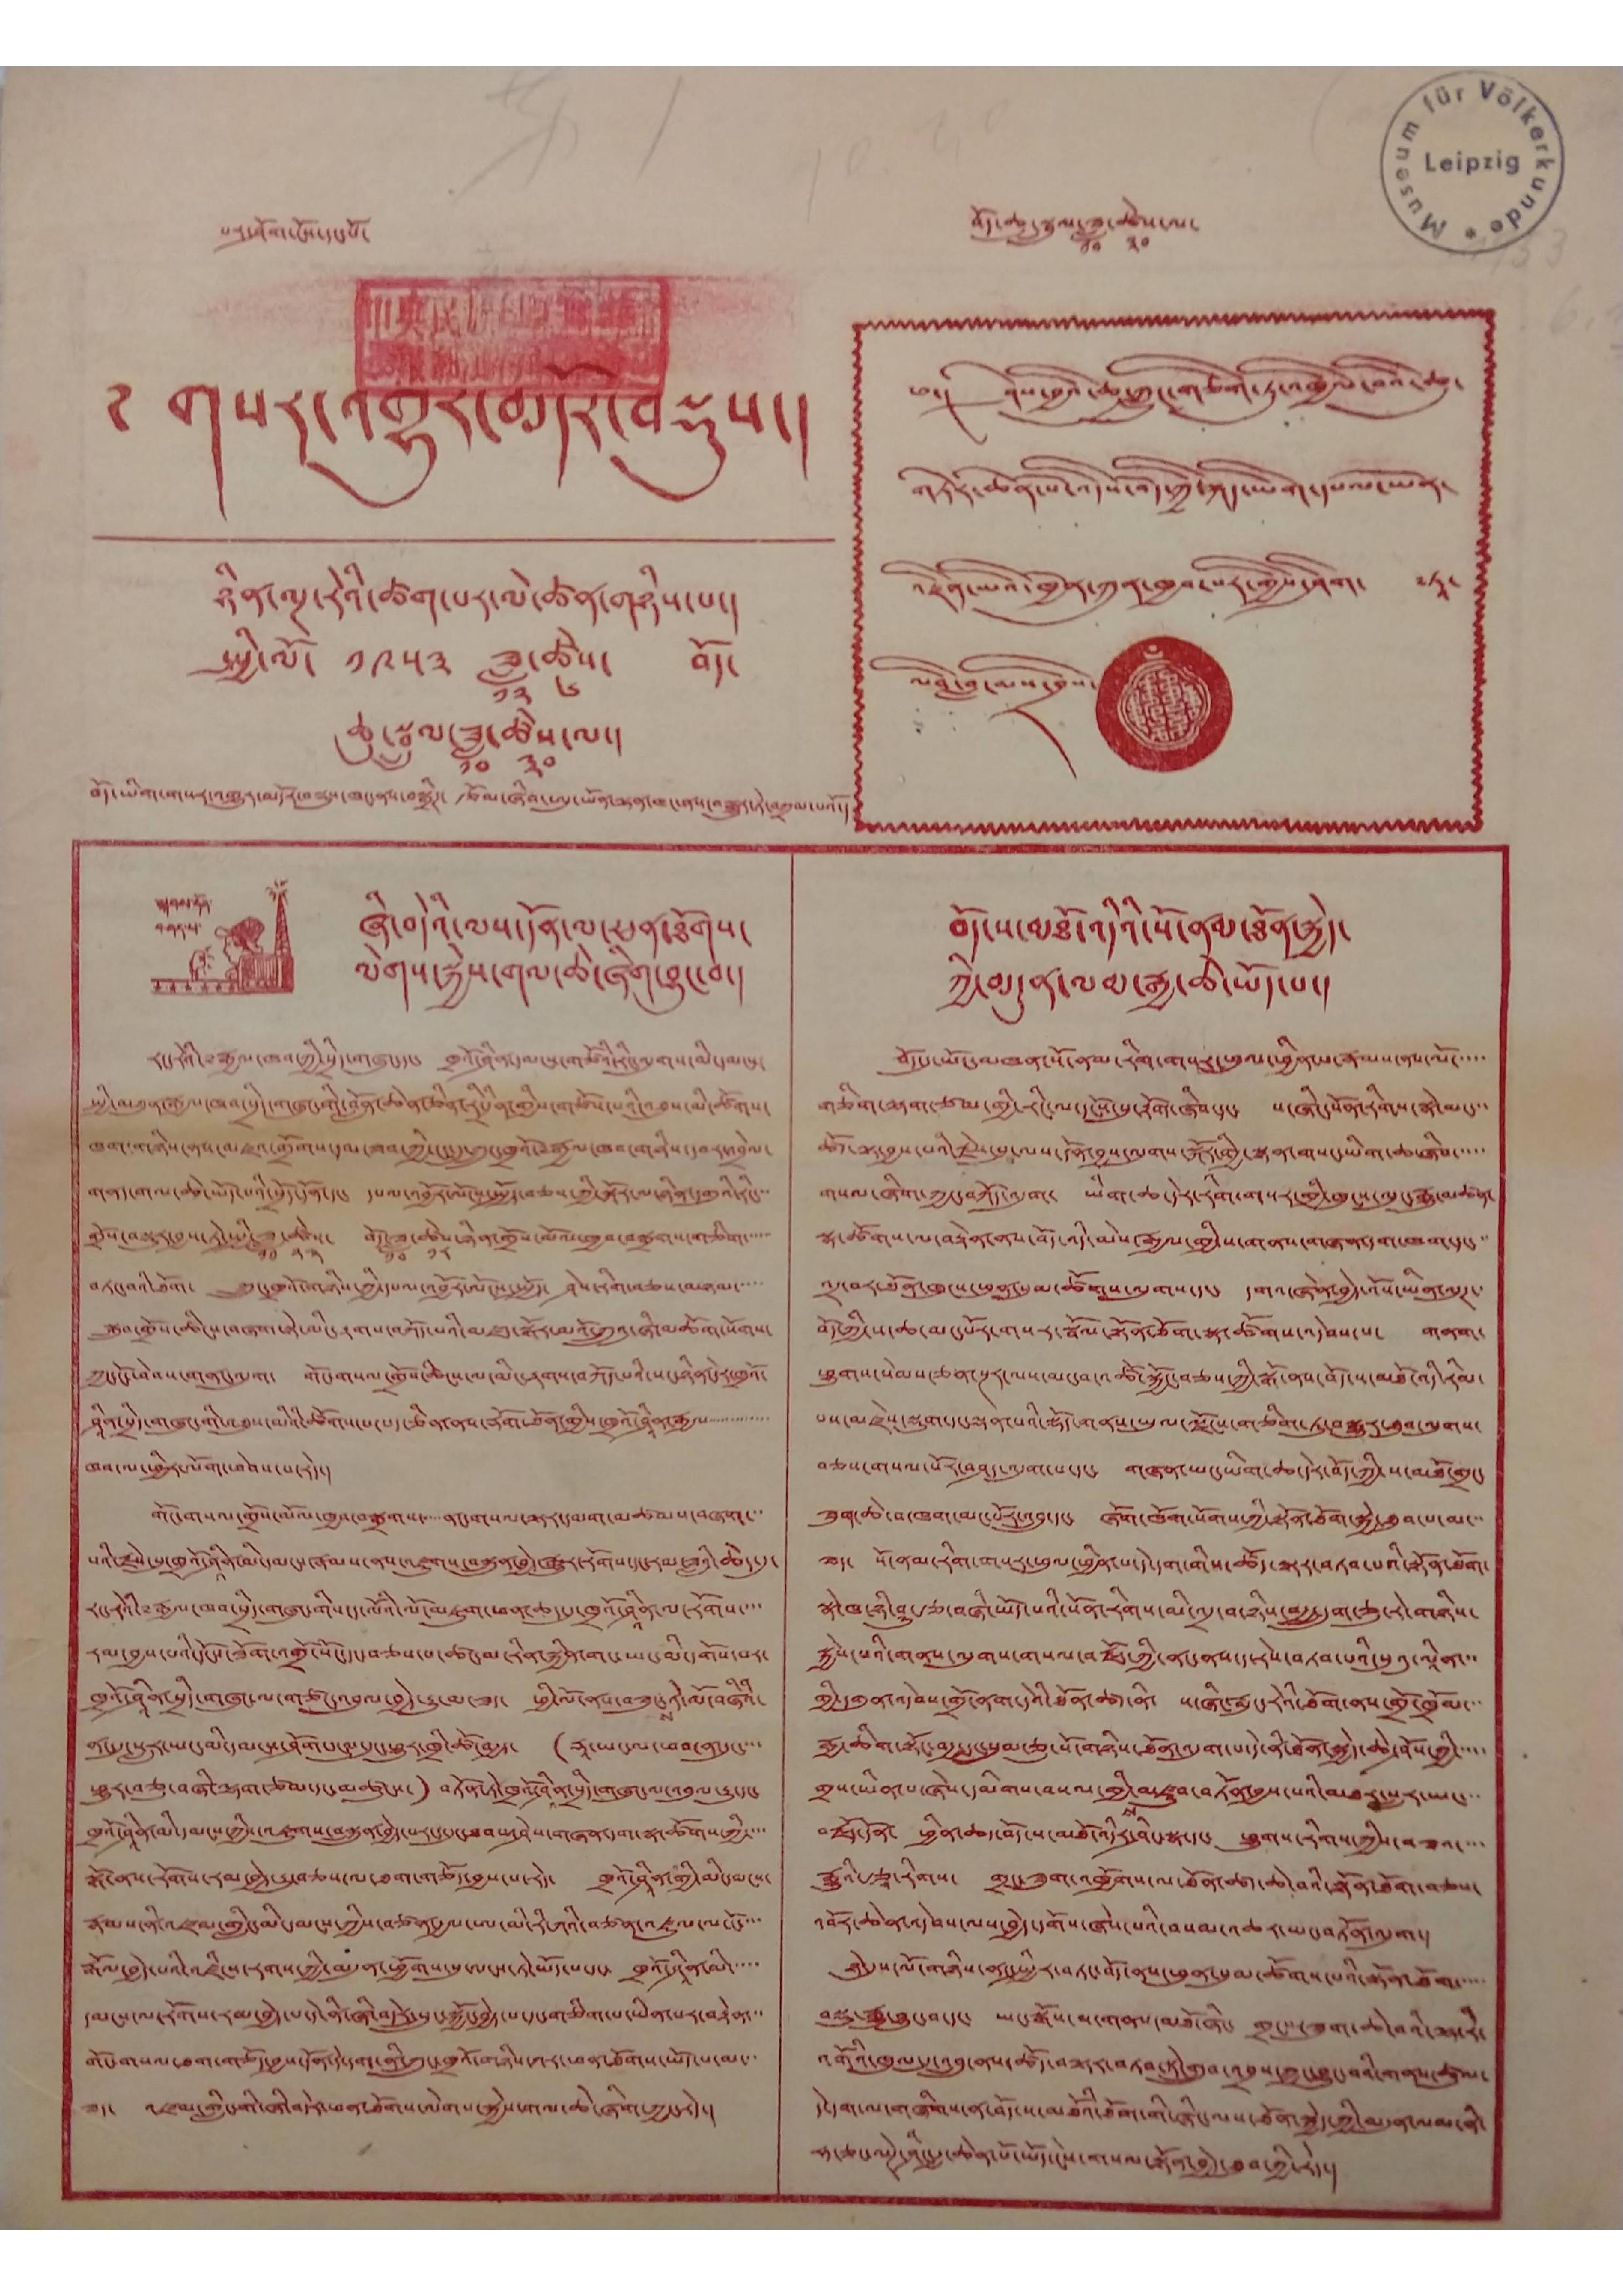པར་ཤོག་ངོས་དང་པོ་ བོད་ཆུ་སྦྲུལ་ཟླ་
༡༠
ཚེས་
༣༠
ལ་
གསར་འགྱུར་མདོར་བསྡུས།
ཉིན་ང་རེའི་ཚག་པར་ལེ་ཚན་གཉིས་པ་།
སྤྱི་ལོ་ ༡༩༥༣ ཟླ་
༡༢
ཚེས་
༦
བོད་
ཆུ་སྦྲུལ་ཟླ་
༡༠
ཚེས་
༣༠
ལ་།
བོད་ཡིག་གསར་འགྱུར་མདོར་བསྡུས་ཁང་ནས་བསྒྲིཊ་ རྩོམ་ཞིབ་ཨུ་ཡོན་ལྷན་ཁང་ནས་བསྒྱུར་ཏེ་བཀྲམ་པའོ་།
༄། ཤེས་བྱའི་ཆུ་ཀླུང་གཅིག་ཏུ་འཁྱིལ་བའི་ཆུ་
གཏེར་ཆེན་པོ་འདིས་བོད་ཀྱི་སྐད་ཡིག་དཔལ་ཡོན་
འཛིན་པའི་ཁྱོན་ཀུན་ཁྱབ་པར་གྱིས་ཤིག་ ༸ཏཱ་
ལའི་བླ་མས་བྲིས་
སྐབས་དོན་
བཤད་པ་
ཞི་བདེའི་ལས་དོན་ལ་ཕན་ཐོགས་
ལེགས་སྐྱེས་གལ་ཆེ་ཞིག་བྱུང་བ་།
རང་རེའི་རྒྱལ་ཁབ་ཀྱི་སྲིད་གཞུང་དང་ ཁྲའོ་ཤིན་དམངས་གཙོའི་རིང་ལུགས་མི་དམངས་
སྤྱི་མཐུན་རྒྱལ་ཁབ་སྲིད་གཞུང་གི་བློན་ཆེན་ཅིན་རི་དྲིན་གྱིས་གཙོས་པའི་འབུས་མི་ཚོགས་
ཁག་གཞིས་ནས་མཛའ་གྲོགས་དམ་ཟབ་ཀྱི་ངང་དུ་ཀྲུང་ཁྲའོ་རྒྱལ་ཁབ་གཉིས་དབར་འབྲེལ་
གནད་གལ་ཆེ་ཡོད་པའི་བྲོད་དོན་དང་ དཔལ་འབྱོར་ལོངས་སྤྱོད་བཅས་ཀྱི་སྐོར་ལ་ཉིན་དགུའི་རིང་་་
གྲོས་བསྡུར་བྱས་ཏེ་སྤྱི་ཟླ་
༡༠
ཚེས་
༢༢
བོད་ཟླ་
༡༠
ཚེས་
༡༨
ཉིན་གྲོས་མོལ་ཁྱབ་བསྒྲགས་གཅིག་་་་་
བཏང་བའི་ཐོག་ ཀྲུང་ཁྲའོ་གཉིས་ཀྱི་དཔལ་འབྱོར་ལོངས་སྤྱོད་ ཤེས་རིག་བཅས་མཉམ་་་་་
སྒྲུབ་གྲོས་ཆིངས་བཞག་སྟེ་ལིང་རྟགས་བཀོད་པའི་མཛད་སྒོར་མའོ་ཀྲུའུ་ཞི་མཆོག་སོགས་
ཀྱང་ངོ་ཕེབས་གནང་འདུག་ གོང་གསལ་གྲོས་ཆིངས་ལ་མིང་རྟགས་བཀོད་པའི་སང་ཉིན་དེར་ཁྲའོ་
ཤཱིན་སྲིད་གཞུང་གི་འཐུས་མིའི་ཚོགས་པ་པད་ཅིན་ནས་རྡོག་ཐོན་གྱིས་ཁྲའོ་ཤཱིན་རྒྱལ་་་་་་་་་་་་་་
ཁབ་ལ་ཕྱིར་ལོག་ཕེབས་པ་རེད་།
གོང་གསལ་གྲོས་མོལ་ཁྱབ་བསྒྲགས་་་་་ནང་གསལ་ལྟར་དམག་མཚམས་བཞག་་་
པའི་རྗེས་སུ་གྲའོ་ཤཱིན་མི་དམངས་རྣམས་ནས་འཛུགས་བསྐྲུན་བྱེད་རྒྱུར་རོགས་དང་རམ་ཟླའི་ཆེད་དུ་
རང་རེའི་༸རྒྱལ་ཁབ་སྲིད་གཞུང་གིས་ད་ལོའི་ལོ་མཇུག་ཕན་ཆད་དུ་ཁྲའོ་ཤཱིན་ལ་རོགས་་་་
རམ་བྱས་པའི་དངོས་ཟོག་འགྲོ་སོང་དང་བཅས་པ་ཚང་མ་རིན་སྐྱིན་གང་ཡང་མི་དགོས་པར་
ཁྲའོ་ཤཱིན་སྲིད་གཞུང་ལ་གཙང་འབུལ་བྱེད་རྒྱུ་མ་ཟད་ ཕྱི་ལོ་ནས་བཟུང་
ས
ཏེ་ལོ་བཞིའི་
ནང་དུ་སླར་ཡང་མི་དམངས་ཤོགས་པ་དུང་ཕྱུར་ཁྲི་ཚོ་བརྒྱད་ (རྡཱ་ཡང་ལ་ཕབ་ན་དུང་་་་
ཕྱུར་བཅུ་བཞི་ལྷག་ཙམ་དང་མཚུངས་) བཏོན་ཏེ་ཁྲའོ་ཤཱིན་སྲིད་གཞུང་ལ་འབུལ་རྒྱུ་དང་
ཁྲའོ་ཤཱིན་མི་དམངས་ཀྱིས་འཛུགས་བསྐྲུན་བྱེད་པར་ད་དུང་ཐབས་ཤེས་གཞན་དག་སྣ་ཚོགས་ཀྱི་་་་
སྒོ་ནས་རོགས་རམ་བྱེད་རྒྱུ་བཅས་ལ་ཐག་གཅོད་བྱས་པ་རེད་ ཁྲའོ་ཤཱིན་གྱི་མི་དམངས་
རྣམས་ནི་འཛམ་གླིང་མི་དམངས་ཀྱིས་བཙན་རྒྱལ་ཨ་མི་རི་ཀའི་བཙན་འཛུལ་ལ་ངོ་་་་
རྒོལ་བྱེད་པའི་འཛིངས་རགས་ཀྱི་མདུན་ཕྱོགས་སུ་ལངས་ཏེ་ཡོད་པ་དང་ ཁྲའོ་ཤཱིན་མི་་་་་
དམངས་ལ་རོགས་རམ་བྱེད་པ་ནི་ཞི་བདེར་སྲུང་སྐྱོང་བྱེད་པ་དང་གཅིག་པ་ཡིན་པར་བརྟེན་་་
གོང་གསལ་ཐག་གཅོད་བྱས་དོན་དེ་དག་ནི་ཀྲུང་ཁྲའོ་གཉིས་ཀར་ཕན་ཐོགས་ཡོད་པ་མ་
ཟད་ འཛམ་གླིང་གི་ཞི་བདེར་ཕན་ཐོགས་ལེགས་སྐྱེས་གལ་ཆེ་ཞིག་ཀྱང་རེད་།
བོད་ས་མཐོ་འདིའི་སོ་ནམ་ཐོན་སྐྱེད་
ཀྱི་མདུན་ལམ་རྒྱ་ཆེ་ཡོད་པ་།
བོད་དུ་ཡོང་མཁན་སོ་ནམ་རིག་གསར་ཕུལ་ཕྱིན་པ་རྣམས་ནས་ལོ་་་་་
གཅིག་ལྷག་ཙམ་གྱི་རིང་ལ་དངོས་སུ་རྟོག་ཞིབ་དང་་ས་ཞིང་སོན་རིགས་སྣེ་མང་་་
ཚོད་ལྟ་བྱས་པའི་རྗེས་སུ་ལས་དོན་བྱས་ལུགས་སྐོར་གྱི་སྙན་གསང་ཡིག་ཆ་ཞིབ་་་་་
གསལ་ཞིག་ཀྱང་བཀོད་འདུག་ ཡིག་ཆ་དེར་རིགས་གསར་གྱི་ཁུངས་ལུང་རྒྱུ་མཚན་
སྣ་ཚོགས་ལ་བརྟེན་ནས་བོད་འདི་མེས་རྒྱལ་གྱི་ས་གནས་གཞན་དག་ཁག་དང་་་
འདྲ་བར་ཐོན་ཁུངས་ཕུན་སུམ་ཚོགས་ལུགས་དང་ དགའ་ཞེན་བྱེད་འོས་ཡིན་ལུཊ་
བོད་ཀྱི་ས་ཆ་མང་པོར་གསར་སྦོལ་སྟོན་ཐོག་སྣ་ཚོགས་འདེབས་པ་ གནག་
ཕྱུགས་སེམས་ཅན་སྔར་ལས་མང་བ་འཚོ་སྐྱོང་བཅས་ཀྱི་སྒོ་ནས་བོད་ས་མཐོ་འདི་རིམ་
པས་མཛེས་སྡུག་དང་ལྡན་པའི་སྡོད་གནས་ཡུལ་ལྗོངས་གཅིག་ཏུ་བསྒྱུར་ཐུབ་ལུགས་
བཅས་གསལ་པོར་བཤད་འདུག་པ་དང་ གཞན་ཡང་ཡིག་ཆ་དེར་བོད་ཀྱི་ས་མཐོ་གྲང་
ཟུག་ཆེ་བ་ཁག་མང་པོར་འབྲུ་དང་ ཞོག་ཁོག་སོགས་ཀྱི་སྟོན་ཐོག་སྐྱེ་ཐུབ་པ་མ་་་
ཟད་ སོ་ནམ་རིག་གསར་ཕུལ་ཕྱིན་པ་དེ་དག་གིས་ཚོད་ལྟར་བཏབ་པའི་སྟོན་ཐོག་
སྣེ་ཁ་ཉི་ཤུ་རྩ་བཞི་ཡོད་པའི་སོན་རིགས་མི་འདྲ་བ་ཉིས་བརྒྱ་དྲུག་ཅུ་རེ་གཉིས་
སྐྱེས་པའི་གནས་ལུགས་གསལ་བརྗོད་ཀྱི་ནང་ནས་ད་རེས་བཏབ་པའི་སུའུ་ལཱིན་་་
གྱི་དགུན་འདེབས་གྲོ་ནག་དེའི་ཐོན་ཚད་ནི་ ས་ཞིང་རྨུང་རེའི་ཐོག་ནས་གྲོ་ཁྲོམ་་་
རྒྱ་ཆིག་སྟོང་བརྒྱ་དང་སུམ་ཅུ་སོ་གཉིས་ཐོན་འདུག་པ་དེ་ནི་ཐོན་སྐྱེད་ཆེ་ཤོས་ཀྱི་་་་་
གྲས་ཡིན་པ་ཞེས་དམིགས་བསལ་གྱི
ས
་མཛུབ་བཏོན་བྱས་པའི་མཐར་སླར་ཡང་་་
བརཇོད་དོན་ ཕྱིན་ཆད་བོད་ས་མཐོ་འདིར་ཤིང་སྣ་དང་ ཕྱུགས་རིགས་ཀྱིས་བཟའ་་་་
རྒྱུའི་རྩཱ་རིགས་ གྲང་ཟུག་འཁྱོགས་ལ་ཐོན་ཚད་ཆེ་བའི་སྟོན་ཐོག་བཅས་
འབོར་ཆེན་འདེབས་ལས་བྱེད་དགོས་ཞེས་པའི་བསམ་འཆར་ཡང་བཏོན་འདུག་།
ཉེ་དུས་ལོ་གཉིས་ནང་སྤྱིར་བཏང་བོད་ནས་ཕུན་སུམ་ཚོགས་པའི་སྟོན་ཐོག་་་་་
བསྡུ་རྒྱུ་བྱུང་བ་དང་ ཡང་སྒོས་ས་གནས་མཐོ་ཞིང་ གྲངས་ཟུག་ཆེ་བའི་ལྷ་རི་
འགོའི་ཁུལ་དུ་འབྲུ་ནས་ཚོད་བལྟར་བཏབ་ཏེ་གྲུབ་འབྲས་ཀྱང་བྱུང་བའི་གནས་ཚུལ་
དེ་དག་ལ་གཞིགས་ན་བོད་ས་མཐོའི་ཐོག་གི་ཞིང་ལས་ཐོན་སྐྱེད་ཀྱི་མདུན་ལམ་ནི་
ཧ་ཅང་ལེཊ་ཤིང་རྒྱ་ཆེན་པོ་ཡོད་ངེས་གསལ་སྟོན་བྱེད་ཐུབ་ཀྱི་རེད་།
